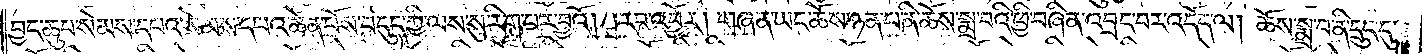བྱང་ཆུབ་སེམས་དཔའ་སེམས་དཔའ་ཆེན་པོས་བདུད་ཀྱི་ལས་སུ་རིག་པར་བྱའོ། །རབ་འབྱོར། གཞན་ཡང་ཆོས་ཉན་པ་ནི་ཆོས་སྨྲ་བའི་ཕྱི་བཞིན་འབྲང་བར་འདོད་ལ། ཆོས་སྨྲ་བ་ནི་དྲུང་དུ་
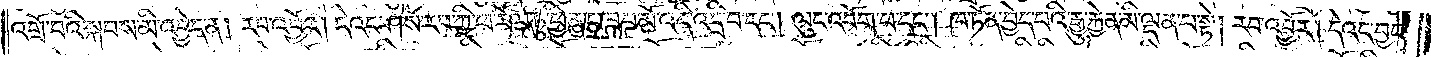འགྲོ་བའི་སྐབས་མི་འབྱེད་ན། རབ་འབྱོར། དེའང་ཤེས་རབ་ཀྱི་ཕ་རོལ་ཏུ་ཕྱིན་པ་ཟབ་མོ་འདི་འདྲི་བ་དང༌། ལུང་འབོག་པ་དང༌། ཁ་ཏོན་བྱེད་པའི་རྒྱུ་རྐྱེན་མི་ལྡན་པ་སྟེ། རབ་འབྱོར། དེའང་བྱང་
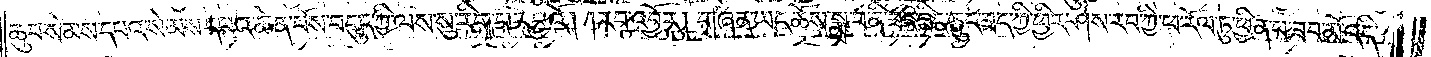ཆུབ་སེམས་དཔའ་སེམས་དཔའ་ཆེན་པོས་བདུད་ཀྱི་ལས་སུ་རིག་པར་བྱའོ། །རབ་འབྱོར། གཞན་ཡང་ཆོས་སྨྲ་བ་ནི་ཟང་ཟིང་ཅུང་ཟད་ཀྱི་ཕྱིར་ཤེས་རབ་ཀྱི་ཕ་རོལ་ཏུ་ཕྱིན་པ་ཟབ་མོ་འདི་
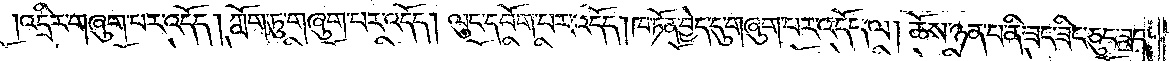འདྲིར་གཞུག་པར་འདོད། ཀློག་ཏུ་གཞུག་པར་འདོད། ལུང་དབོག་པར་འདོད། ཁ་ཏོན་བྱེད་དུ་གཞུག་པར་འདོད་ལ། ཆོས་ཉན་པ་ནི་ཟང་ཟིང་ཅུང་ཟད་
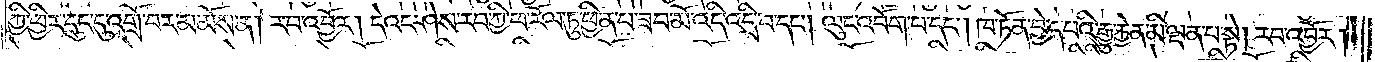ཀྱི་ཕྱིར་དྲུང་དུ་འགྲོ་བར་མ་མོས་ན། རབ་འབྱོར། དེའང་ཤེས་རབ་ཀྱི་ཕ་རོལ་ཏུ་ཕྱིན་པ་ཟབ་མོ་འདི་འདྲི་བ་དང༌། ལུང་འབོག་པ་དང༌། ཁ་ཏོན་བྱེད་པའི་རྒྱུ་རྐྱེན་མི་ལྡན་པ་སྟེ། རབ་འབྱོར།
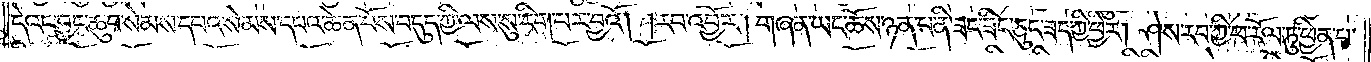དེའང་བྱང་ཆུབ་སེམས་དཔའ་སེམས་དཔའ་ཆེན་པོས་བདུད་ཀྱི་ལས་སུ་རིག་པར་བྱའོ། །རབ་འབྱོར། གཞན་ཡང་ཆོས་ཉན་པ་ནི་ཟང་ཟིང་ཅུང་ཟད་ཀྱི་ཕྱིར། ཤེས་རབ་ཀྱི་ཕ་རོལ་ཏུ་ཕྱིན་པ་
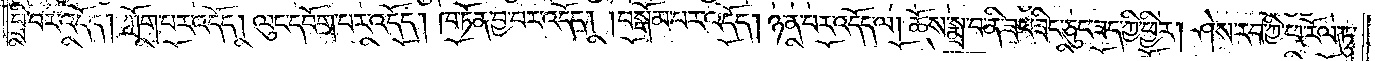བྲི་བར་འདོད། ཀློག་པར་འདོད། ལུང་དབོག་པར་འདོད། ཁ་ཏོན་བྱ་བར་འདོད། བསྒོམ་པར་འདོད། ཉན་པར་འདོད་ལ། ཆོས་སྨྲ་བ་ནི་ཟང་ཟིང་ཅུང་ཟད་ཀྱི་ཕྱིར། ཤེས་རབ་ཀྱི་ཕ་རོལ་ཏུ་
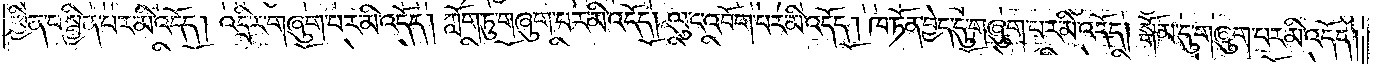ཕྱིན་པ་སྦྱིན་པར་མི་འདོད། འདྲིར་གཞུག་པར་མི་འདོད། ཀློག་ཏུ་གཞུག་པར་མི་འདོད། ལུང་འབོག་པར་མི་འདོད། ཁ་ཏོན་བྱེད་དུ་གཞུག་པར་མི་འདོད། སྒོམ་དུ་གཞུག་པར་མི་འདོད།
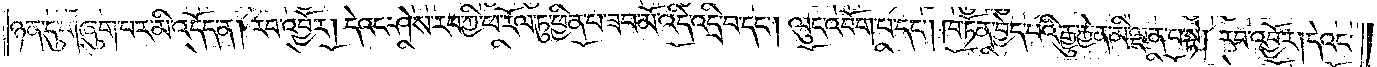ཉན་དུ་གཞུག་པར་མི་འདོད་ན། རབ་འབྱོར། དེའང་ཤེས་རབ་ཀྱི་ཕ་རོལ་ཏུ་ཕྱིན་པ་ཟབ་མོ་འདི་འདྲི་བ་དང༌། ལུང་འབོག་པ་དང༌། ཁ་ཏོན་བྱེད་པའི་རྒྱུ་རྐྱེན་མི་ལྡན་པ་སྟེ། རབ་འབྱོར། དེའང་
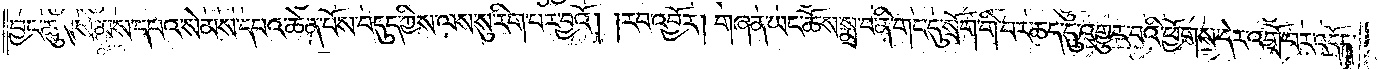བྱང་ཆུབ་སེམས་དཔའ་སེམས་དཔའ་ཆེན་པོས་བདུད་ཀྱི་ལས་སུ་རིག་པར་བྱའོ། །རབ་འབྱོར། གཞན་ཡང་ཆོས་སྨྲ་བ་ནི་གང་དུ་སྲོག་གི་བར་ཆད་དུ་འགྱུར་བའི་ཕྱོགས་དེར་འགྲོ་བར་འདོད་
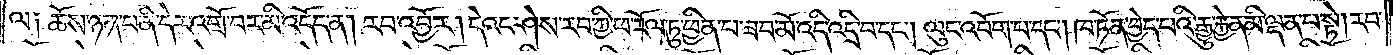ལ༑ ཆོས་ཉན་པ་ནི་དེར་འགྲོ་བར་མི་འདོད་ན། རབ་འབྱོར། དེའང་ཤེས་རབ་ཀྱི་ཕ་རོལ་ཏུ་ཕྱིན་པ་ཟབ་མོ་འདི་འདྲི་བ་དང༌། ལུང་འབོག་པ་དང༌། ཁ་ཏོན་བྱེད་པའི་རྒྱུ་རྐྱེན་མི་ལྡན་པ་སྟེ། རབ་
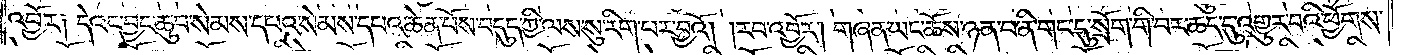འབྱོར༑ དེའང་བྱང་ཆུབ་སེམས་དཔའ་སེམས་དཔའ་ཆེན་པོས་བདུད་ཀྱི་ལས་སུ་རིག་པར་བྱའོ། །རབ་འབྱོར། གཞན་ཡང་ཆོས་ཉན་བ་ནི་གང་དུ་སྲོག་གི་བར་ཆད་དུ་འགྱུར་བའི་ཕྱོགས་
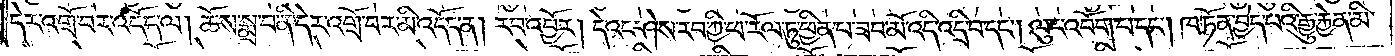དེར་འགྲོ་བར་འདོད་ལ། ཆོས་སྨྲ་བ་ནི་དེར་འགྲོ་བར་མི་འདོད་ན། རབ་འབྱོར། དེའང་ཤེས་རབ་ཀྱི་ཕ་རོལ་ཏུ་ཕྱིན་པ་ཟབ་མོ་འདི་འདྲི་བ་དང༌། ལུང་འབོག་པ་དང༌། ཁ་ཏོན་བྱེད་པའི་རྒྱུ་རྐྱེན་མི་
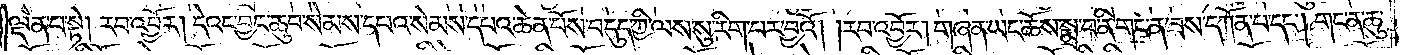ལྡན་པ་སྟེ། རབ་འབྱོར། དེའང་བྱང་ཆུབ་སེམས་དཔའ་སེམས་དཔའ་ཆེན་པོས་བདུད་ཀྱི་ལས་སུ་རིག་པར་བྱའོ། །རབ་འབྱོར། གཞན་ཡང་ཆོས་སྨྲ་བ་ནི་གང་ན་ཟས་དཀོན་པ་དང༌། གང་ན་ཆུ་
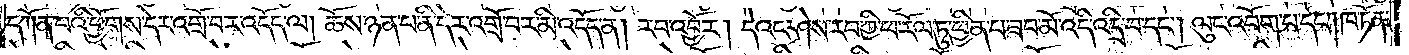དཀོན་པའི་ཕྱོགས་དེར་འགྲོ་བར་འདོད་ལ། ཆོས་ཉན་པ་ནི་དེར་འགྲོ་བར་མི་འདོད་ན། རབ་འབྱོར། དེའང་ཤེས་རབ་ཀྱི་ཕ་རོལ་ཏུ་ཕྱིན་པ་ཟབ་མོ་འདི་འདྲི་བ་དང༌། ལུང་འབོག་པ་དང༌། ཁ་ཏོན་
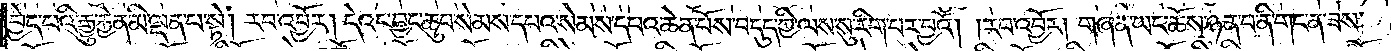བྱེད་པའི་རྒྱུ་རྐྱེན་མི་ལྡན་པ་སྟེ། རབ་འབྱོར། དེའང་བྱང་ཆུབ་སེམས་དཔའ་སེམས་དཔའ་ཆེན་པོས་བདུད་ཀྱི་ལས་སུ་རིག་པར་བྱའོ། །རབ་འབྱོར། གཞན་ཡང་ཆོས་ཉན་པ་ནི་གང་ན་ཟས་
